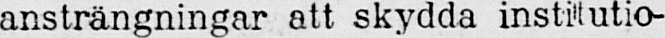ansträngningar att skydda institutio-
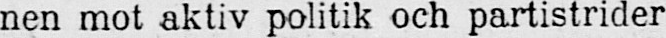nen mot aktiv politik och partistrider
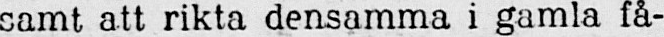samt att rikta densamma i gamla få-
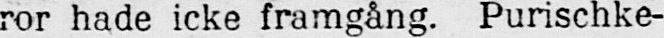ror hade icke framgång. Purischke-
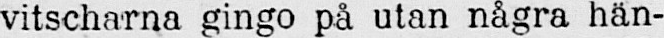vitscharna gingo på utan några hän-
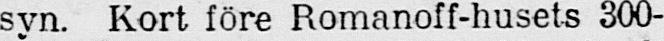syn. Kort före Romanoff-husets 300-
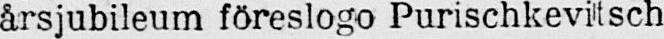årsjubileum föreslogo Purischkevitsch
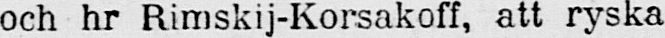och hr Rimskij-Korsakoff, att ryska
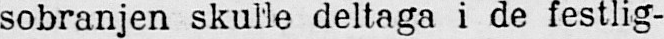sobranjen skulle deltaga i de festlig-
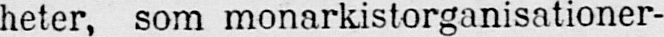heter, som monarkistorganisationer-
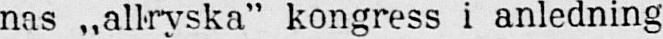nas „allryska" kongress i anledning
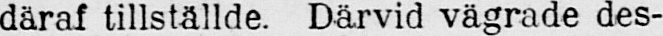däraf tillställde. Därvid vägrade des-
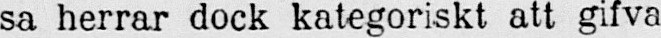sa herrar dock kategoriskt att gifva
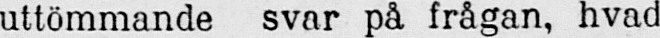uttömmande svar på frågan, hvad
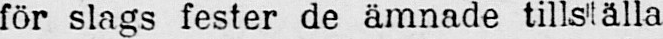för slags fester de ämnade tillställa
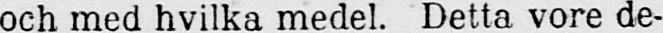och med hvilka medel. Detta vore de-
